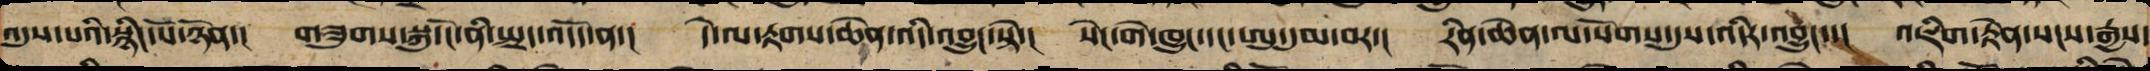འདུས་པའི་སྙིང་པོ་ཉོན་། གཟུགས་སྐུ་ངོ་ནི་སྤྲད་འདོད་ན་། དེ་ལ་རྟགས་ཆེན་འདི་འབྱུང་སྟེ་། སེང་གེ་ཁྱུང་དང་ཨུ་དུམ་བར་། རིན་ཆེན་ལ་སོགས་དུས་འདིར་འབྱུང་་། འཇིག་རྟེན་སངས་རྒྱས་
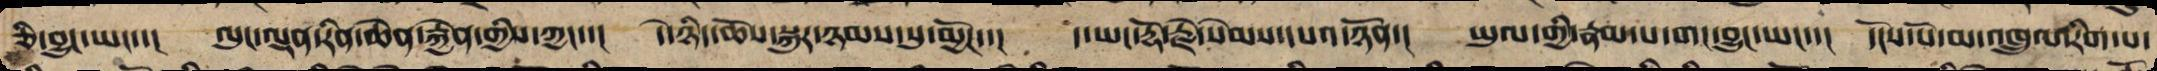ཅི་བྱུང་ཡང་་། ལུང་ལྡན་རིན་ཆེན་རྐྱེན་གྱིས་ཀྱང་་། དེ་ཉིད་ཆོས་སྐུར་ཉམས་སུ་མྱོང་་། ད་ཡང་རྡོ་རྗེ་སེམས་དཔའ་ཉོན་། ཡུལ་གྱི་རྣམ་པ་གང་བྱུང་ཡང་།་ དངོས་པོ་མ་འཁྲུལ་རིག་པ་
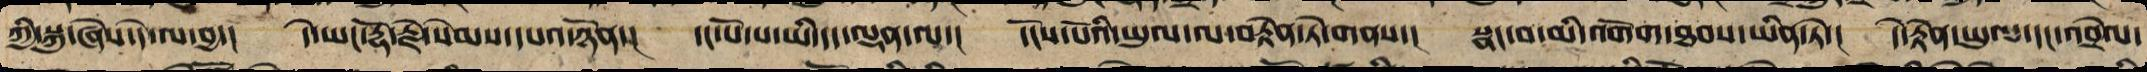ཀྱི་སྐུ་ཞེས་དེ་ལ་བྱ་། དེ་ཡང་རྡོ་རྗེ་སེམས་དཔའ་ཉོན་། དང་པོ་པ་ཡི་དད་ལྡན་ལ་། དངོས་པོའི་ཡུལ་ལ་བརྟེན་ཏེ་བསྟན་། སྣང་བ་མི་འགོག་ཐབས་ཡིན་ཏེ་། དེ་རྟེན་ཡུལ་དང་འབྲེལ་
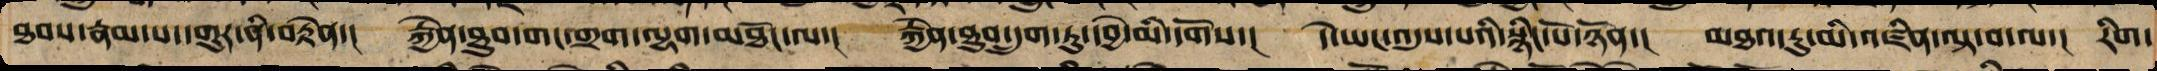ཐབས་རྣམ་པ་དགུར་ནི་བརྟེན་། རྐྱེན་ཐུབ་གང་གྲག་ལྷག་མཐོང་ལ་། རྐྱེན་ཐུབ་དྲུག་ཏུ་དབྱེ་མི་དགོས་། དེ་ཡང་འདུས་པའི་སྙིང་པོ་ཉོན་། མཐའ་རུ་མི་འཛིན་ལྟ་བ་ལ་། རིག་
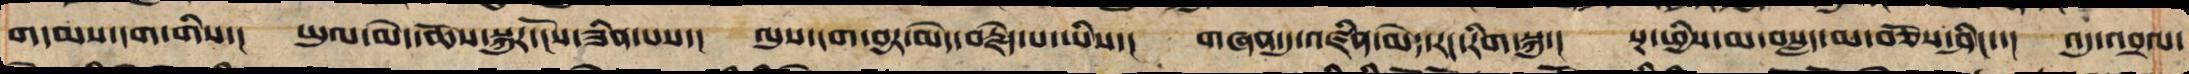གདམས་ངག་གིས་།  ཡུལ་མེད་ཆོས་སྐུར་ངོས་ཟིན་པས་།  ལུས་ངག་བྱར་མེད་བརྗེད་པ་ཡིས་།  གཞན་དུ་འཛིན་མེད་རང་རིག་སྐུ་།  སྔ་ཕྱིས་མ་བསླད་མ་བཅོས་ཤིང་།  འདུ་འབྲལ་
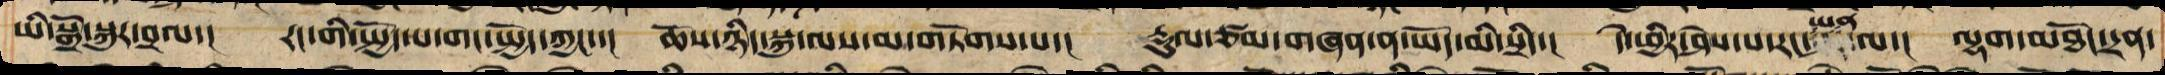ཡི་སྒྲོ་སྐུར་བྲལ་།  རང་གི་སྤྱོད་པ་གང་སྤྱོད་ཀྱང་།  ཆོས་ཀྱི་སྐུ་ལས་མ་གཏོགས་པ་།    རྡུལ་ཙམ་གཞན་ན་ཡོད་མི་སྲིད་།   དེ་ཕྱིར་ཤེས་པ་རང་ཡན་ལ་།  ལྷག་མཐོང་དྲན་
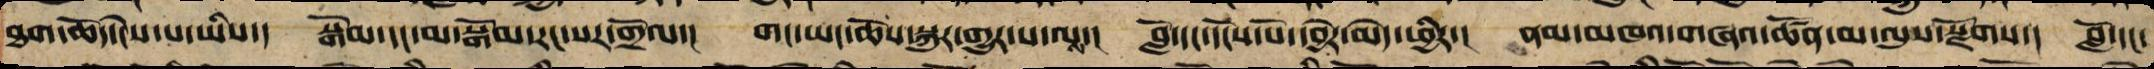ཐག་ཆོད་ངེས་པ་ཡིས་། སྒོམ་དང་མ་སྒོམས་རང་སར་གྲོལ་། གང་ཡང་ཆོས་སྐུར་གྱུར་པ་ལས་། བློ་དང་དངོས་པོ་དབྱེར་མེད་ཕྱིར་། ནམ་མཁའི་གཞའ་ཚོན་མ་ལུས་སྫོགས་། བློ་དང་
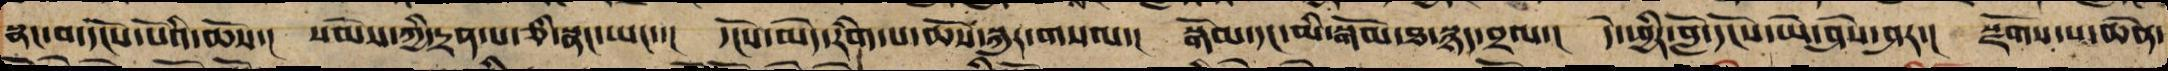སྣང་བ་དངོས་པོའི་ཆོས་། སེམས་ཀྱི་དྲན་པ་ཅི་སྣང་ཡང་་། དངོས་མེད་རིག་པ་ཆོས་སྐུར་གསལ་། སྒོམ་དང་མི་སྒོམས་ཐ་སྙད་བྲལ་། དེ་ཕྱིར་བློ་དངོས་ཡེ་ཤེས་ཤར་། སྫོགས་པ་ཆེན་
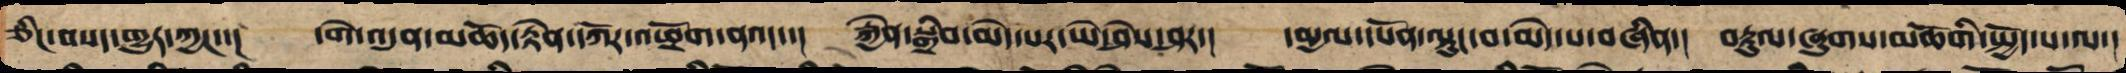ཅིང་བསད་གྱུར་ཀྱང་་། དགེ་འདུན་མཆོད་རྟེན་དཀོར་འཕྲོག་ནའང་་། རྐྱེན་སྒྲིབ་མེད་པར་ཡེ་ཤེས་ཤར་། དམྱལ་དཔོན་ལྟུང་བ་མེད་པ་བཞིན་། བརྟུལ་ཞུགས་མཆོག་གི་སྤྱོད་པ་ལ་།
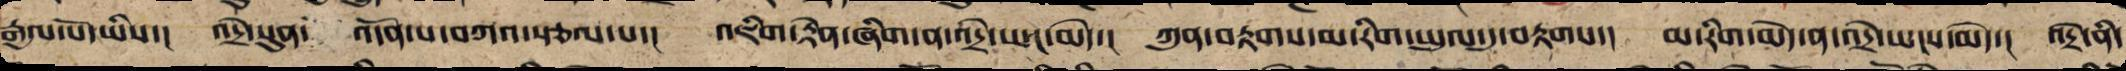རྒྱལ་པོ་ཡིས་། འདྲེ་སུན་  འདོན་པ་བཀའ་སྩལ་པ་། འཇིག་རྟེན་ཞིག་ན་འདྲེ་ཡང་མེད་། ཀུན་བརྟགས་མ་རིག་ཡུལ་དུ་བརྟགས་། མ་རིག་མེད་ན་འདྲེ་ཡང་མེད་། འདྲེ་ནི་
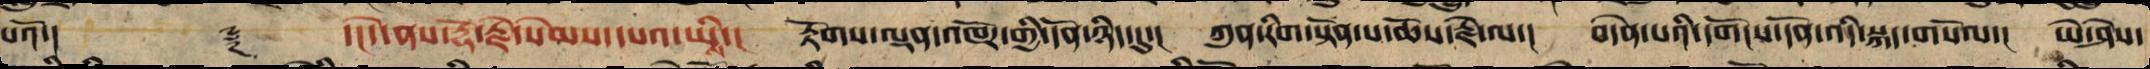པའོ་།།       ༈    ་།།དེ་ནས་རྡོ་རྗེ་སེམས་དཔའ་ཡི་།  རྟོགས་ལྡན་འཁོར་གྱི་དོན་ཉིད་དུ་།   ཀུན་རིག་སྟོན་པ་ཆོས་རྗེ་ལ་།   བདེན་པའི་དགོངས་དོན་འདི་སྐད་གསོལ་།  ཡེ་ཤེས་
